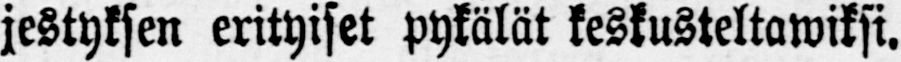jestyksen erityiset pykälät keskusteltawiksi.
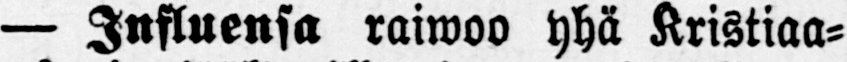— Influensa raiwoo yhä Kristiaa-
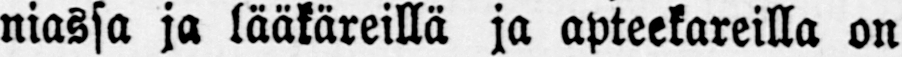niassa ja lääkäreillä ja apteekareilla on
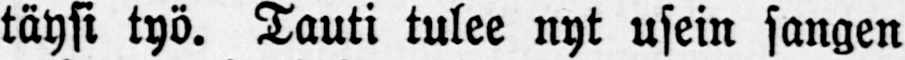täysi työ. Tauti tulee nyt usein sangen
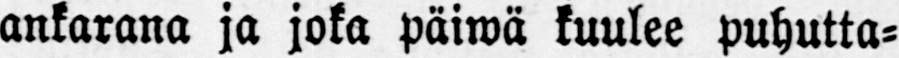ankarana ja joka päiwä kuulee puhutta-
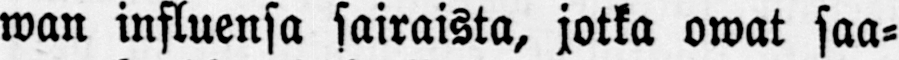wan influensa sairaista, jotka owat saa-
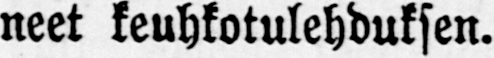neet keuhkotulehduksen.
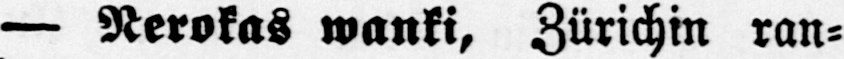— Nerokas wanki, Zürichin ran-
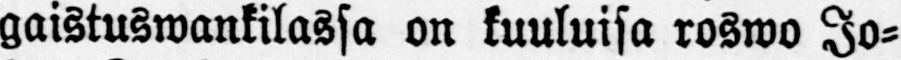gaistuswankilassa on kuuluisa roswo Jo-
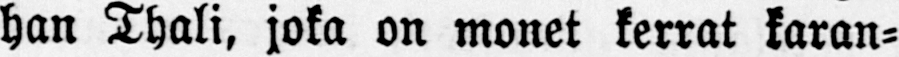han Thali, joka on monet kerrat karan-
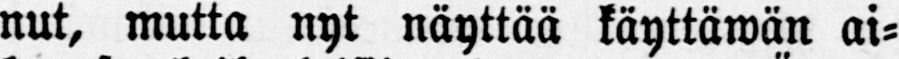nut, mutta nyt näyttää käyttäwän ai-
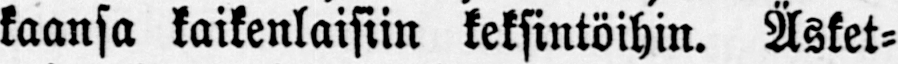kaansa kaikenlaisiin keksintöihin. Äsket-
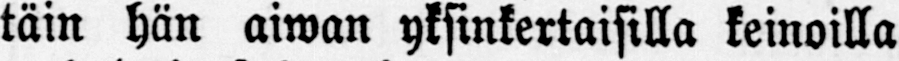täin hän aiwan yksinkertaisilla keinoilla
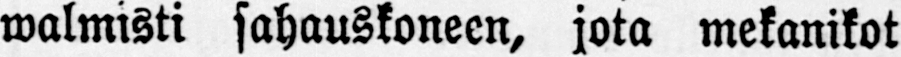walmisti sahauskoneen, jota mekanikot
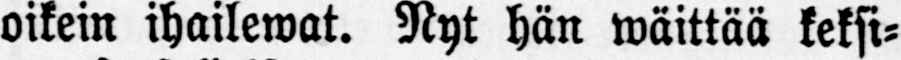oikein ihailewat. Nyt hän wäittää keksi-
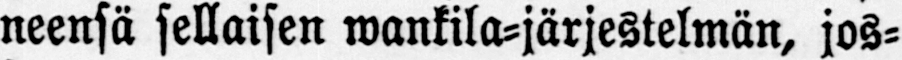neensä sellaisen wankila-järjestelmän, jos-
